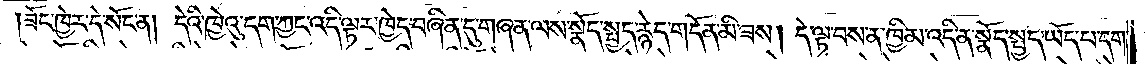ཟོང་ཁྱེར་དེ་སོང་ན། དེའི་ཁྱེའུ་དག་ཀྱང་འདི་ལྟར་ཁྱེད་བཞིན་དུ་གཞན་ལས་སྣོད་སྤྱད་རྙེད་གདོན་མི་ཟས། དེ་ལྟ་བས་ན་ཁྱིམ་འདི་ན་སྣོད་སྤྱད་ཡོད་པ་དག་
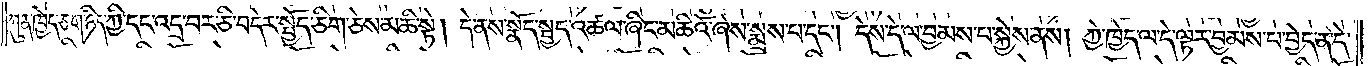ཀུན་ཁྱེད་ཅག་ཉིད་ཀྱི་དང་འདྲ་བར་ཅི་བདེར་སྤྱོད་ཅིག་ཅེས་མཆི་སྟེ། དེ་ནས་སྣོད་སྤྱད་འཚལ་ཞིང་མཆིའོ་ཞེས་སྨྲས་པ་དང༌། དེས་དེ་ལ་བྱམས་པ་སྐྱེས་ནས། ཀྱེ་ཁྱེད་ལ་དེ་ལྟར་བྱམས་པ་བྱེད་ན་དེ་
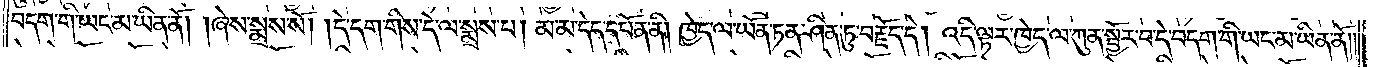བདག་གི་ཡང་མ་ཡིན་ནོ། །ཞེས་སྨྲས་སོ། །དེ་དག་གིས་དེ་ལ་སྨྲས་པ། མ་མ་དེད་དཔོན་ནི། ཁྱེད་ལ་ཡོན་ཏན་ཤིན་ཏུ་བརྗོད་དེ། འདི་ལྟར་ཁྱེད་ལ་ཀུན་སྦྱོར་བ་དེ་བདག་གི་ཡང་མ་ཡིན་ནོ༎
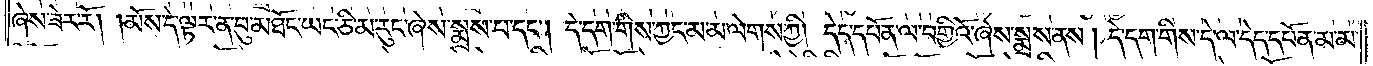ཞེས་ཟེར་རོ། །མོས་དེ་ལྟར་ན་བུ་མཐོང་ཡང་ཅི་མ་རུང་ཞེས་སྨྲས་པ་དང༌། དེ་དག་གིས་ཀྱང་མ་མ་ལེགས་ཀྱི། དེད་དཔོན་ལ་བགྱིའོ་ཞེས་སྨྲས་ནས། དེ་དག་གིས་དེ་ལ་དེད་དཔོན་མ་མ་
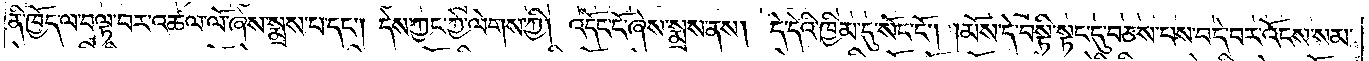ནི་ཁྱོད་ལ་བལྟ་བར་འཚལ་ལོ་ཞེས་སྨྲས་པ་དང༌། དེས་ཀྱང་ཀྱེ་ལེགས་ཀྱི། འདོང་ངོ་ཞེས་སྨྲས་ནས། དེ་དེའི་ཁྱིམ་དུ་སོང་ངོ༌། །མོས་དེ་བསྟི་སྟང་དུ་བཅས་པས་བདེ་བར་འོངས་སམ་
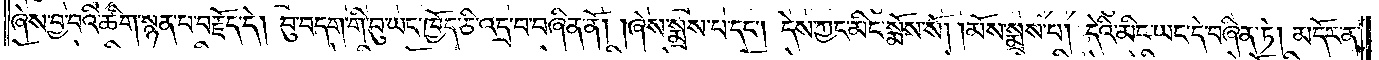ཞེས་བྱ་བའི་ཚིག་སྙན་པ་བརྗོད་དེ། བུ་བདག་གི་བུ་ཡང་ཁྱོད་ཅི་འདྲ་བ་བཞིན་ནོ། །ཞེས་སྨྲས་པ་དང༌། དེས་ཀྱང་མིང་སྨོས་སོ། །མོས་སྨྲས་པ། དེའི་མིང་ཡང་དེ་བཞིན་ཏེ། མདོར་ན་
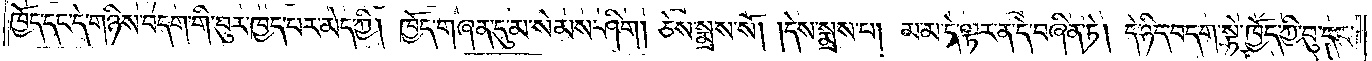ཁྱོད་དང་དེ་གཉིས་བདག་གི་བུར་ཁྱད་པར་མེད་ཀྱི། ཁྱོད་གཞན་དུ་མ་སེམས་ཤིག །ཅེས་སྨྲས་སོ། །དེས་སྨྲས་པ། མ་མ་དེ་ལྟར་ན་དེ་བཞིན་ཏེ། དེ་ཉིད་བདག་སྟེ་ཁྱོད་ཀྱི་བུ་དང་
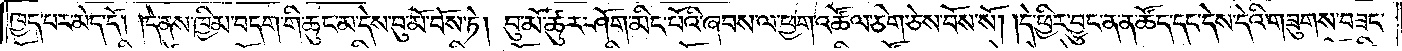ཁྱད་པར་མེད་དོ། །དེ་ནས་ཁྱིམ་བདག་གི་ཆུང་མ་དེས་བུ་མོ་བོས་ཏེ། བུ་མོ་ཚུར་ཤོག་མིང་པོའི་ཞབས་ལ་ཕྱག་འཚོལ་ཅིག་ཅེས་བོས་སོ། །དེ་ཕྱིར་བྱུང་ན་ན་ཚོད་དང་དེས་དེའི་གཟུགས་བཟང་
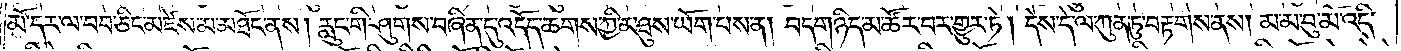མོ་དར་ལ་བབ་ཅིང་མཛེས་མ་མཐོང་ནས། རླུང་གི་ཤུགས་བཞིན་དུ་འདོད་ཆགས་ཀྱི་མཐུས་ཡོག་པས་ན། བདག་ཉིད་མ་ཚོར་བར་གྱུར་ཏེ། དེས་དེ་ལ་ཀུན་ཏུ་བརྟགས་ནས། མ་མ་བུ་མོ་འདི་
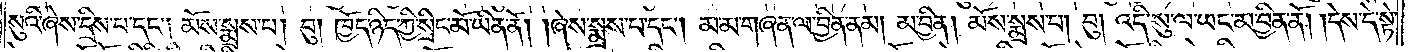སུའི་ཞེས་དྲིས་པ་དང༌། མོས་སྨྲས་པ། བུ། ཁྱོད་ཉིད་ཀྱི་སྲིང་མོ་ཡིན་ནོ། །ཞེས་སྨྲས་པ་དང༌། མ་མ་གཞན་ལ་བྱིན་ནམ། མ་བྱིན། མོས་སྨྲས་པ། བུ། འདི་སུ་ལ་ཡང་མ་བྱིན་ནོ། །དེས་དེ་སྟེ་
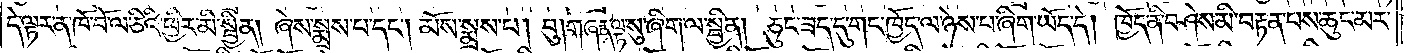དེ་ལྟར་ན་ཁོ་བོ་ལ་ཅིའི་ཕྱིར་མི་སྦྱིན། ཞེས་སྨྲས་པ་དང༌། མོས་སྨྲས་པ། བུ། གཞན་ལྟ་སུ་ཞིག་ལ་སྦྱིན། ཅུང་ཟད་དུ་གང་ཁྱོད་ལ་ཉེས་པ་ཞིག་ཡོད་དེ། ཁྱོད་ནི་བཤེས་མི་བརྟན་པས་ཆུང་མར་
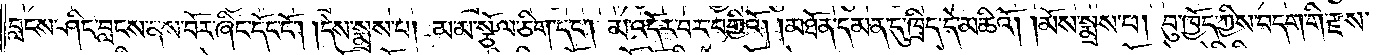བླངས་ཤིང་བླངས་ནས་བོར་ཞིང་དོང་ངོ༌། །དེས་སྨྲས་པ། མ་མ་སྩོལ་ཅིག་དང༌། མ་འདོར་བར་བགྱིའོ། །མཐོན་དམན་དུ་ཁྲིད་དེ་མཆིའོ། །མོས་སྨྲས་པ། བུ་ཁྱོད་ཀྱིས་བདག་གི་རྫས་
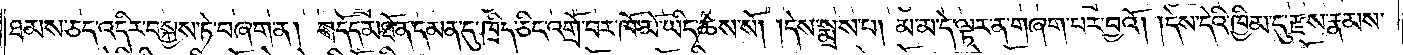ཐམས་ཅད་འདིར་བསྐྱས་ཏེ་བཞག་ན། གདོད་མཐོན་དམན་དུ་ཁྲིད་ཅིང་འགྲོ་བར་ཁོ་མོ་ཡིད་ཆེས་སོ། །དེས་སྨྲས་པ། མ་མ་དེ་ལྟར་ན་གཞག་པར་བྱའོ། །དེས་དེའི་ཁྱིམ་དུ་རྫས་རྣམས་
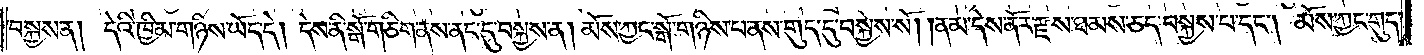བསྐྱས་ན། དེའི་ཁྱིམ་གཉིས་ཡོད་དེ། དེས་ནི་སྒོ་གཅིག་ནས་ནང་དུ་བསྐྱས་ན། མོས་ཀྱང་སྒོ་གཉིས་པ་ནས་གུད་དུ་བསྐྱེས་སོ། །ནམ་དེས་ནོར་རྫས་ཐམས་ཅད་བསྐྱས་པ་དང༌། མོས་ཀྱང་གུད་
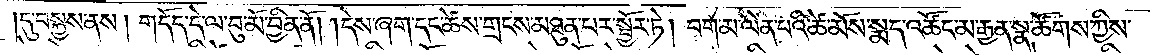དུ་བསྐྱས་ནས། གདོད་དེ་ལ་བུ་མོ་བྱིན་ནོ། །དེས་ཞག་དང་ཚེས་གྲངས་མཐུན་པར་སྦྱོར་ཏེ། བག་མ་ལེན་པའི་ཚེ་མོས་སྨད་འཚོང་མ་རྒྱན་སྣ་ཚོགས་ཀྱིས་
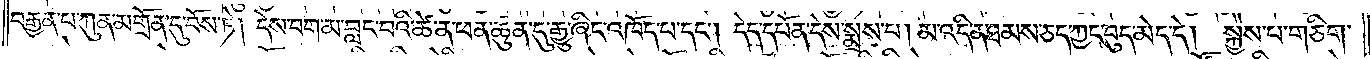བརྒྱན་པ་ཀུན་མགྲོན་དུ་བོས་ཏེ། དེས་བག་མ་བླང་བའི་ཚེ་ན་ཕན་ཚུན་དུ་རྒྱུ་ཞིང་འཁོད་པ་དང༌། དེད་དཔོན་དེས་སྨྲས་པ། མ་འདི་ན་ཐམས་ཅད་ཀྱང་བུད་མེད་དེ། སྐྱེས་པ་གཅིག་
